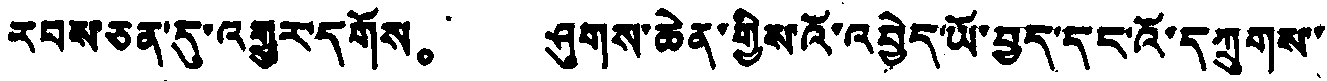རབས་ཅན་དུ་འགྱུར་དགོས。 ཤུགས་ཆེན་གྱིས་འོ་འབྱེད་ཡོ་བྱད་དང་འོ་དཀྲུགས་
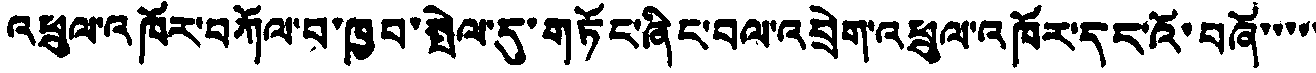འཕྲུལ་འཁོར་བཀོལ་བ་ཁྱབ་སྤེལ་དུ་གཏོང་ཞིང་བལ་འབྲེག་འཕྲུལ་འཁོར་དང་འོ་བཞོ་་་་་་
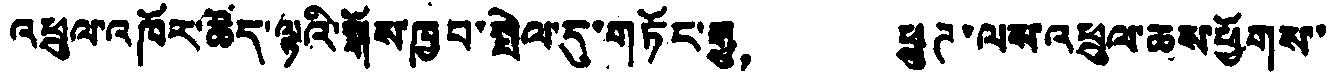འཕྲུལ་འཁོར་ཚོད་ལྟའི་སྒོས་ཁྱབ་སྤེལ་དུ་གཏོང་རྒྱུ， ཕྱུཊ་ལས་འཕྲུལ་ཆས་ཕྱོགས་
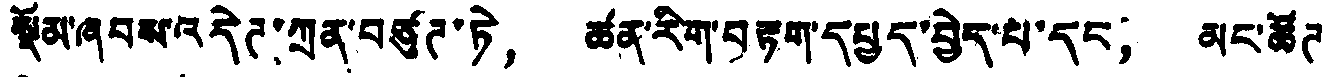སྡོམ་ཞབས་འདེཊ་ཀྲན་བཙུཊ་ཏེ， ཚན་རིག་བརྟག་དཔྱད་བྱེད་པ་དང， མང་ཚོཊ
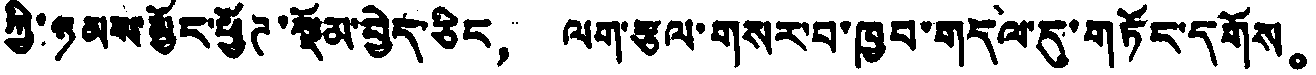ཀྱི་ཉམས་མྱོང་ཕྱོཊ་སྡོམ་བྱེད་ཅིང， ལག་རྩལ་གསར་བ་ཁྱབ་གདལ་དུ་གཏོང་དགོས。
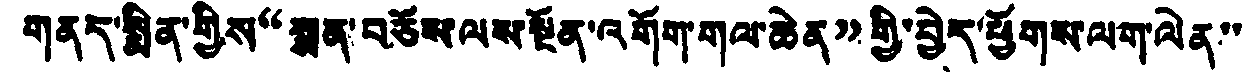གནད་སྨིན་གྱིས“སྨན་བཅོས་ལས་སྔོན་འགོག་གལ་ཆེན”གྱི་བྱེད་ཕྱོགས་ལག་ལེན་་
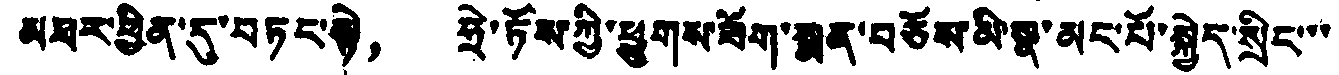མཐར་ཕྱིན་དུ་བཏང་སྟེ， ཧྲེ་ཏོས་ཀྱི་ཕྱུགས་ཟོག་སྨན་བཅོས་མི་སྣ་མང་པོ་སྐྱེད་སྲིང་་་
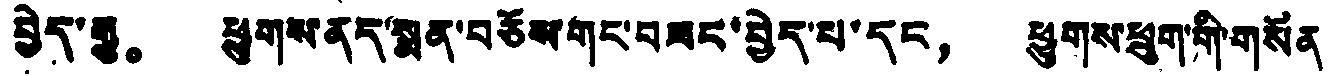བྱེད་རྒྱུ。 ཕྱུགས་ནད་སྨན་བཅོས་གང་བཟང་བྱེད་པ་དང， ཕྱུགས་ཕྲུག་གི་གསོན
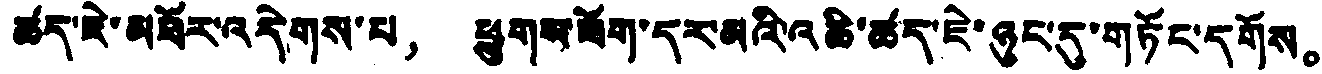ཚད་རེ་མཐོར་འདེགས་པ， ཕྱུགས་ཕོག་དར་མའི་འཆི་ཚད་ཇེ་ཉུང་དུ་གཏོང་དགོས。
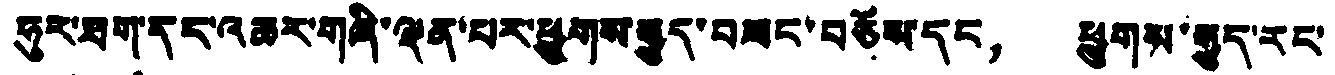ཧུར་ཐག་དང་འཆར་གཞི་ལྡན་པར་ཕྱུགས་རྒྱུད་བཟང་བཅོས་དང， ཕྱུགས་རྒྱུད་རང་
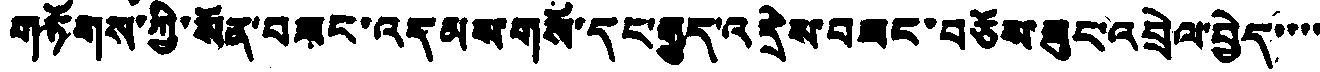གཏོགས་ཀྱི་སོན་བཟང་འདམས་གསོ་དང་རྒྱུད་འདྲེས་བཟང་བཅོས་ཟུང་འབྲེལ་བྱེད་་་་
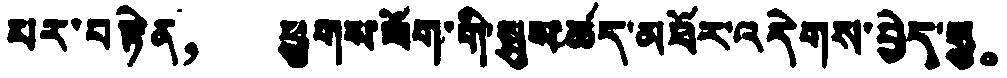པར་བརྟེན， ཕྱུགས་ཟོག་གི་སྤུས་ཚད་མཐོར་འདེགས་བྱེད་རྒྱུ。
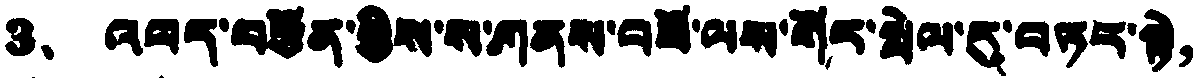3、 འཕད་བརྩོན་གྱིས་ས་གནས་འཕོ་ལས་སོར་སྤེལ་རུ་བཏར་སྟེ，
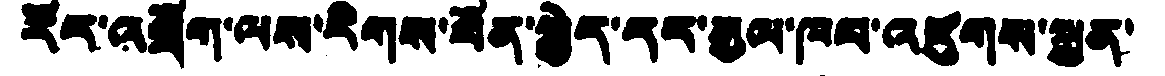རོར་འབྲོག་ལས་རིགས་ཐོན་སྐྱེད་དར་རྒྱལ་ཁབ་འཛུགས་སྐྲུན་
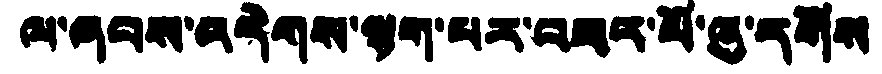ལ་ཞབས་མདེགས་ལྷག་པར་བཟར་པོ་ཞུ་དགོས
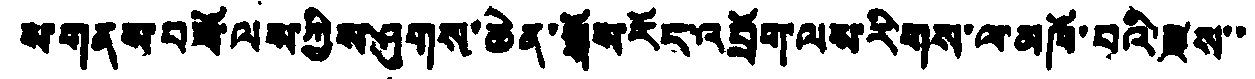ས་གནས་བཟོ་ལས་ཀྱིས་ཤུགས་ཆེན་སྒོས་རོང་འབྲོག་ལས་རིགས་ལ་མཁོ་བའི་རྫས་་
